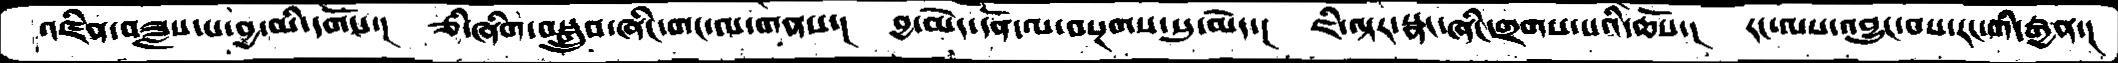འཛིན་བཟླས་པ་བྱ་མི་དགོས་།  ཅི་ཞིག་བསྒྲུབ་ཞིང་གང་ལ་གནས་།  བྱ་མེད་དོན་ལ་བསྔགས་སུ་མེད་།  ཇི་ལྟར་སྣང་ཞིང་གྲགས་པའི་ཆོས་།  རང་ལས་འབྱུང་བས་རང་གི་རྒྱན་།
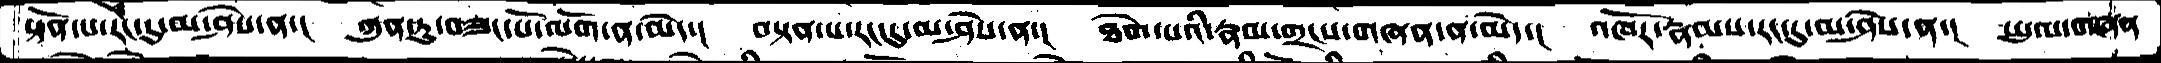སྟོན་པ་རེང་དུ་མ་ཤེས་ན་།  ཀུན་ཏུ་བཟང་པོ་ལོག་ན་མེད་།  བསྟན་པ་རང་དུ་མ་ཤེས་ན་།  ཐེག་པའི་རྣམ་གྲངས་གཞན་ན་མེད་།  འཁོར་རྣམས་རང་དུ་མ་ཤེས་ན་།  ཡུལ་གཞན་
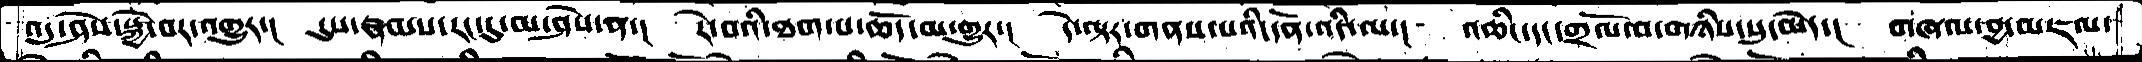འདུ་ཤེས་སྐྱེ་བར་འགྱུར་།  དུས་རྣམས་རང་དུ་མ་ཤེས་ན་།  རེ་བའི་ཐག་པ་ཆོད་མ་གྱུར་།  དེ་ལྟར་གནས་པའི་དོན་འདི་ལ་།  འཆིང་དང་གྲོལ་བ་གཉིས་སུ་མེད་།  གཞལ་བྱ་མཇལ་
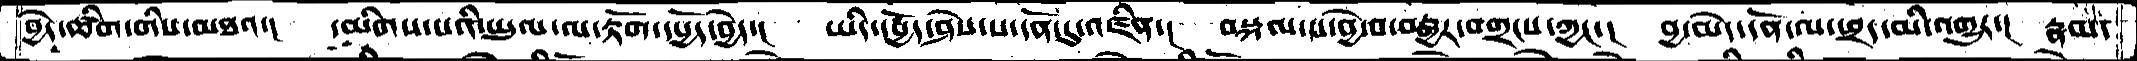བྱེད་ཚིག་གིས་མཐའ་།  དམིགས་པའི་ཡུལ་ལ་རྟོག་དཔྱོད་བྱེད་།  ཡིད་དཔྱོད་ཤེས་པ་དོན་དུ་འཛིན་།  བསྐལ་པ་བྱེ་བ་བརྒྱར་བགྲངས་ཀྱང་།  བྱ་མེད་དོན་ལ་ཕྲད་མི་འགྱུར་།  རྣམ་
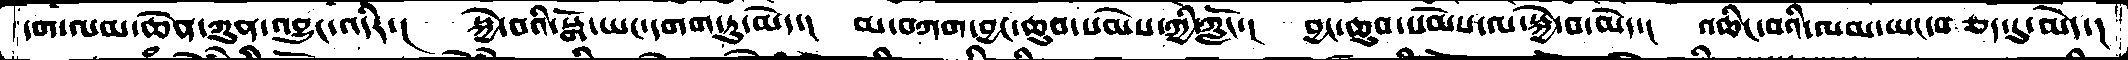དག་ལམ་ཆེན་ཀུན་འབྱུང་འདིར་།  སྐྱེ་བའི་སྒོ་ཡང་དགག་ཏུ་མེད་།  མ་བཀག་བྱང་ཆུབ་སེམས་ཀྱི་ཀློང་།  བྱང་ཆུབ་སེམས་ལ་སྐྱེ་བ་མེད་།  འཆིང་བའི་ལམ་ཡང་བཅད་དུ་མེད་།
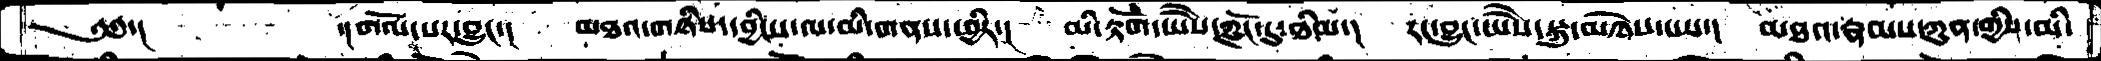༄༅་།      ་།གོལ་པར་བྱུང་།  མཐའ་གཉིས་དབྱིངས་ལ་མི་གནས་ཕྱིར་།  མི་རྟོག་ཡཻས་ཀློང་དུ་ཐིམ་།  རང་བྱུང་ཡཻས་སྐུ་མཉེས་པས་།  མཐའ་རྣམས་ཀུན་གྱིས་མི་
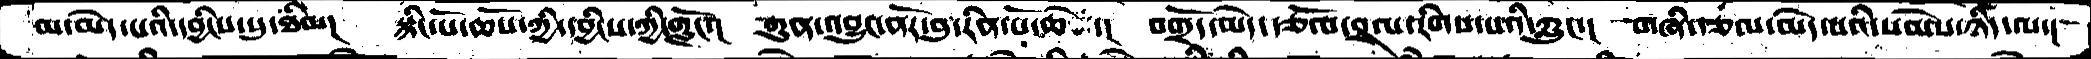མ་མེད་པའི་དབྱིངས་སུ་ཐིམ།  སྙིང་པོ་ཆོས་ཀྱི་དབྱིངས་ཀྱི་ཀློང་།  ཀུན་འབྱུང་ནོར་བུ་རིན་པོ་ཆེ་།  བགྲོད་མེད་རྩོལ་བྲལ་རིགས་པའི་ཀླུང་།  གཞི་རྩལ་མེད་པའི་སེམས་ཉིད་ལ་།
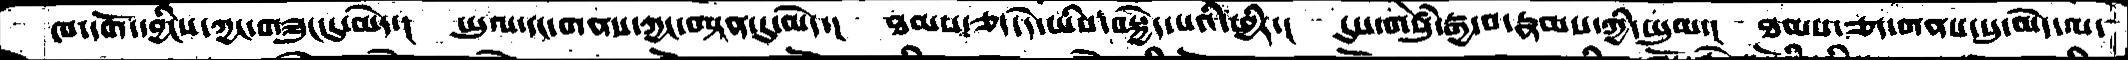ཁ་དོག་དབྱིངས་ཀྱང་གཟུང་དུ་མེད་།  ཡུལ་དང་གནས་ཀྱང་བསྟན་དུ་མེད་།  ཐམས་ཅད་དེ་ཡིས་བསྐྱེད་པའི་ཕྱིར་།  དུས་གསུཾ་རྒྱ་བ་རྣམས་ཀྱི་ཡུམ་།  ཐམས་ཅད་གནས་སུ་མེད་ལ་
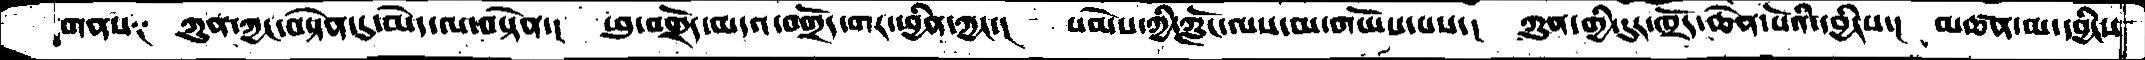གནས༑  ཀུན་ཀྱང་བསྟེན་དུ་མེད་ལ་བསྟེན་།  ཕུ་བགྲོད་མདའ་བགྲོད་གར་ཕྱིན་ཀྱང་།  སེམས་ཀྱི་ཀློང་ལས་མ་གཡོས་པས་། ཀུན་གྱི་དུར་ཁྲོད་ཆེན་པོའི་དབྱིངས་།  མཚན་མ་དབྱིངས་
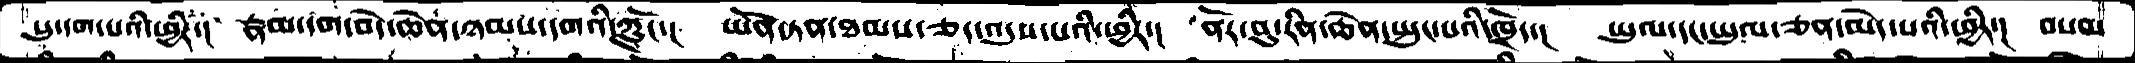སུ་དག་པའི་ཕྱིར་།  རྣམ་དག་བདེ་ཆེན་ཉམས་དགའི་ཀློང་།  ཡོན་ཏན་ཐམས་ཅད་འདུས་པའི་ཕྱིར་།  ནོར་བུ་རིན་ཆེན་སྤུང་པའི་ཁྲོད་།  ཡུལ་དང་ཡུལ་ཅན་མེད་པའི་ཕྱིར་།  བསམ་
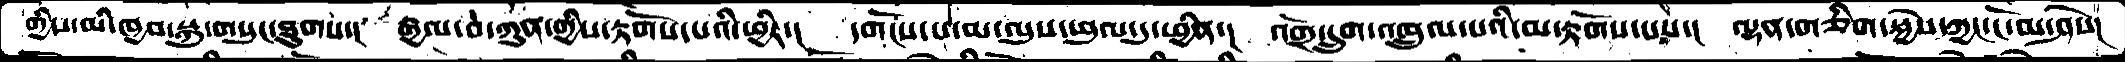གྱིས་མི་ཁྱབ་སྐུ་གསུང་ཐུགས་།  རྒྱལ་བ་ཀུན་གྱིས་རྟོགས་པའི་ཕྱིར་།  དགོངས་པ་མ་ལུས་ཕུལ་དུ་ཕྱིན་།  འགྲོ་དྲུག་འཁྲུལ་པའི་མ་རྟོགས་པས་།  ལྷན་གཅིག་སྐྱེས་ཀྱང་ངོ་མ་ཤེས།
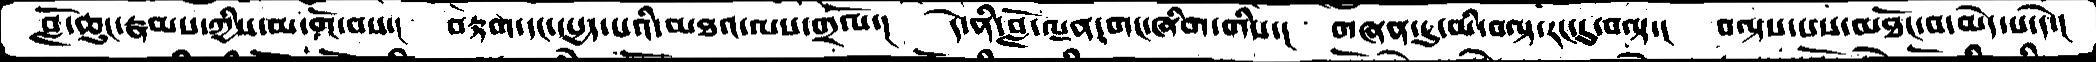བློ་ཆུང་རྣམས་ཀྱིས་མ་གོ་བས་།  བརྟག་དང་དཔྱད་པའི་མཐའ་ལས་གྲོལ་།  དེ་ནི་བློ་ལྡན་གང་ཞིག་གིས་།  གཞན་དུ་མི་བལྟ་རང་དུ་བལྟ་།  བལྟས་པས་མཐོང་བ་མེད་པ་དེ་།
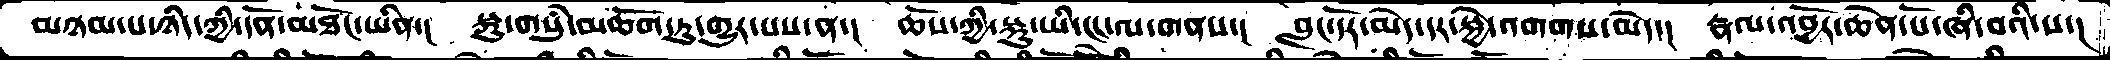མཉམ་པ་ཉིད་ཀྱི་དོན་མཐོང་ཡིན་།  སྐུ་གསུཾ་མཆོག་ཏུ་གྱུར་པས་ན་།  ཆོས་ཀྱི་སྐུ་ཡི་ངང་ལ་གནས་།  བླང་དོར་མེད་དར་སྐྱེ་འགགས་མེད་།  རྣལ་འབྱོར་ཆེན་པོ་ཞི་བའི་ས་།
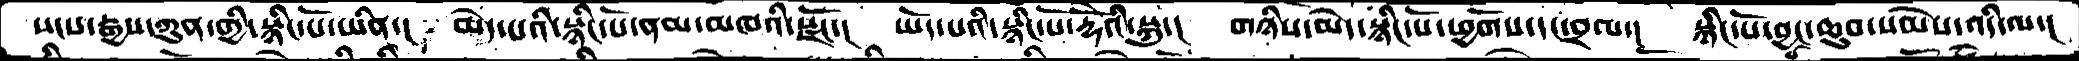སངས་རྒྱས་ཀུན་གྱི་སྙིང་པོ་ཡིན་།  མེད་པའི་སྙིང་པོ་ནམ་མཁའི་སྫོང་།  ཡོད་པའི་སྙིང་པོ་རྡོེའི་སྐུ་།  གཉིས་མེད་སྙིང་པོ་ཕྱོགས་དང་བྲལ་།  སྙིང་པོ་བྱང་ཆུབ་སེམས་འདི་ལ་།
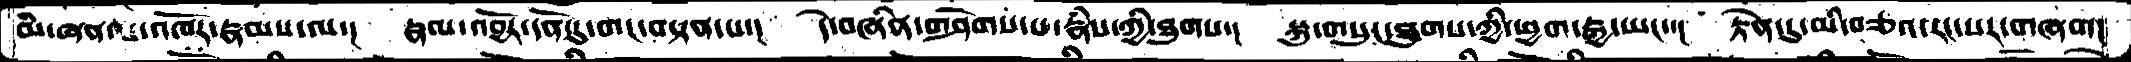མི་ཞན་པ་འཁོར་རྣམས་ལ་།  རྣལ་འབྱོར་དོན་དུ་གང་བསྟན་པ་།  དེ་བཞིན་གཤེགས་པ་རྣཾས་ཀྱི་ཐུགས་།  སྐུ་གསུང་ཐུགས་ཀྱི་ཕྱག་རྒྱ་ཡང་་།  རྟེན་དུ་མི་བཅའ་རང་སར་གཞག།
